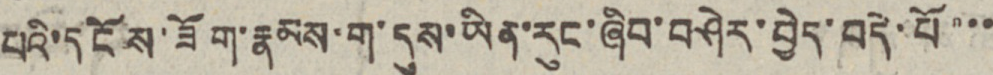པའི་དངོས་ཟོག་རྣམས་ག་དུས་ཡིན་རུང་ཞིབ་བཤེར་བྱེད་བདེ་པོ་་་
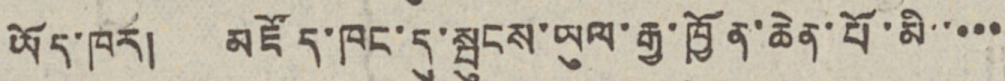ཡོད་ཁར། མཛོད་ཁང་དུ་སྤུངས་ཡུལ་རྒྱ་ཁྱོན་ཆེན་པོ་མི་་་་་
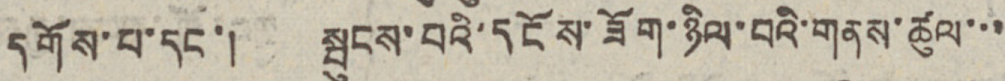དགོས་པ་དང་། སྤུངས་པའི་དངོས་ཟོག་ཉིལ་བའི་གནས་ཚུལ་་་
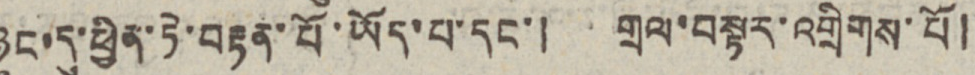ཉུང་དུ་ཕྱིན་ཏེ་བརྟན་པོ་ཡོད་པ་དང་། གྲལ་བསྟར་འགྲིགས་པོ།
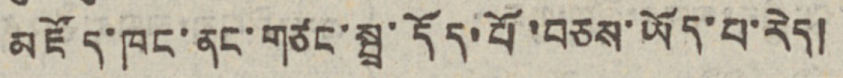མཛོད་ཁང་ནང་གཙང་སྤྲ་དོད་པོ་བཅས་ཡོད་པ་རེད།
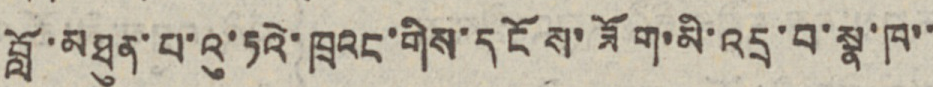བློ་མཐུན་པ་འུ་ཏའེ་ཁྲའང་གིས་དངོས་ཟོག་མི་འདྲ་བ་སྣ་ཁ་་
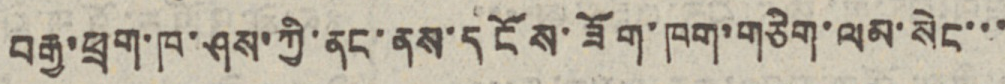བརྒྱ་ཕྲག་ཁ་ཤས་ཀྱི་ནང་ནས་དངོས་ཟོག་ཁག་གཅིག་ལམ་སེང་་་
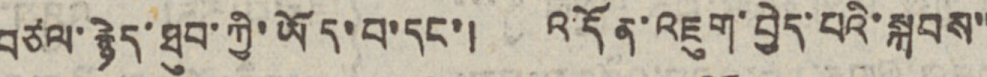བཙལ་རྙེད་ཐུབ་ཀྱི་ཡོད་པ་དང་། འདོན་འཇུག་བྱེད་པའི་སྐབས་་
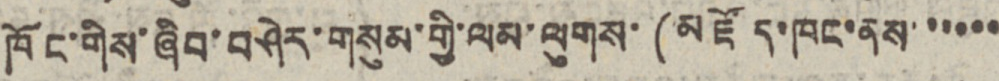ཁོང་གིས་ཞིབ་བཤེར་གསུམ་གྱི་ལམ་ལུགས་(མཛོད་ཁང་ནས་་་་་་
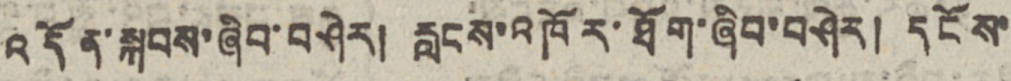འདོན་སྐབས་ཞིབ་བཤེར། རླངས་འཁོར་ཐོག་ཞིབ་བཤེར། དངོས་
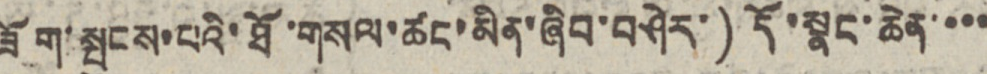ཟོག་སྤུངས་པའི་ཐོ་གསལ་ཚང་མིན་ཞིབ་བཤེར་) དོ་སྣང་ཆེན་་་་
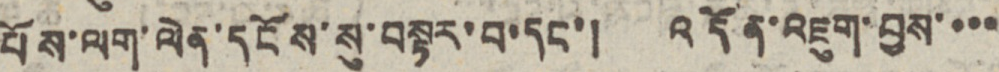པོས་ལག་ལེན་དངོས་སུ་བསྟར་བ་དང་། འདོན་འཇུག་བྱས་་་་
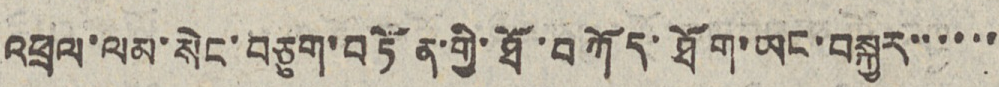འཕྲལ་ལམ་སེང་བཅུག་བཏོན་གྱི་ཐོ་བཀོད་ཐོག་ཡང་བསྐྱར་་་་་་
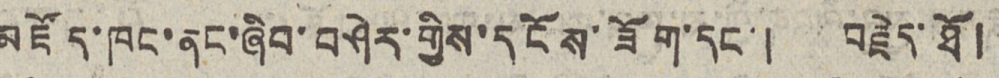མཛོད་ཁང་ནང་ཞིབ་བཤེར་གྱིས་དངོས་ཟོག་དང་། བརྗེད་ཐོ།
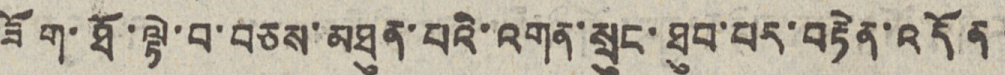ཟོག་ཐོ་ལྟེ་བ་བཅས་མཐུན་པའི་འགན་སྲུང་ཐུབ་པར་བརྟེན་འདོན
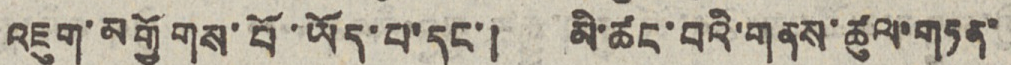འཇུག་མགྱོགས་པོ་ཡོད་པ་དང་། མི་ཚང་བའི་གནས་ཚུལ་གཏན་
